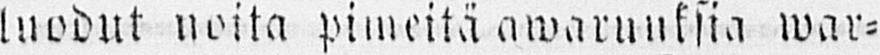luodut noita pimeitä awaruuksia war-
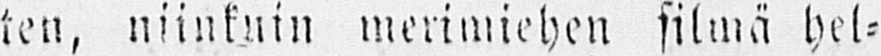ten, niinkuin merimiehen silmä hel-
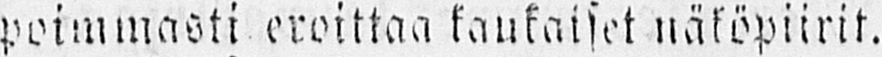poimmasti eroittaa kaukaiset näköpiirit.
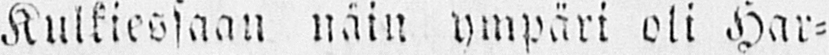Kukiessaan näin ympäri oli Har-
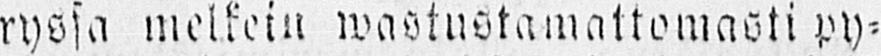ryssä melkein wastustamattomasti py-
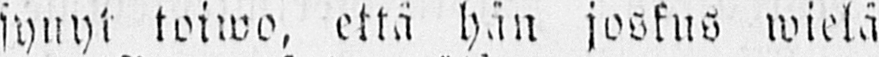synyt toiwo, että hän joskus wielä
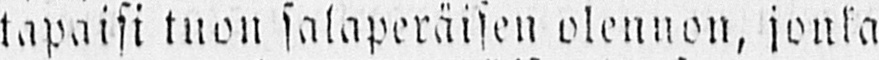tapaisi tuon salaperäisen olennon, jonka
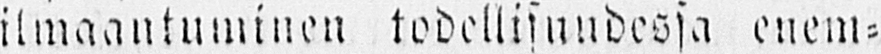ilmaantuminen todellisuudessa enem-
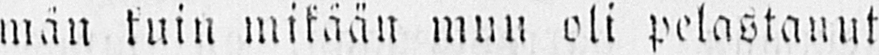män kuin mikään muu oli pelastanut
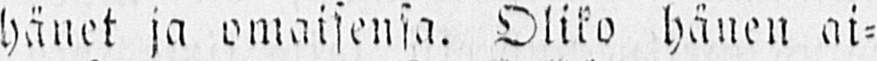hänet ja omaisensa. Oliko hänen ai-
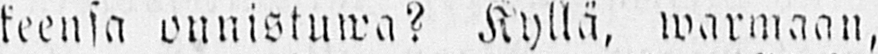keensa onnistuwa? Kyllä, warmaan,
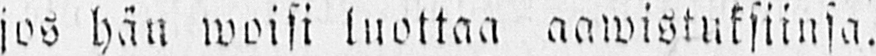jos hän woisi luottaa aawistuksiinsa.
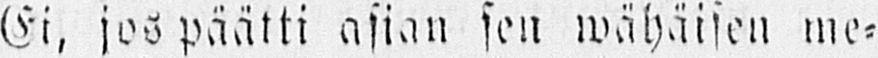Ei, jos päätti asian sen wähäisen me-
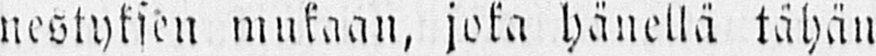nestyksen mukaan, joka hänellä tähän
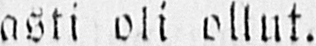asti oli ollut.
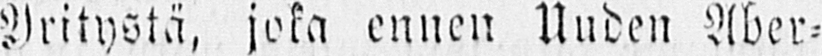Yritystä, joka ennen Uuden Aber-
